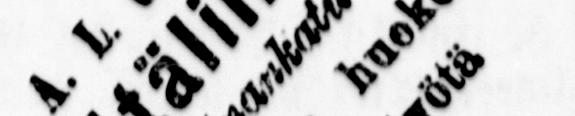valmistetaan huokeinta ja
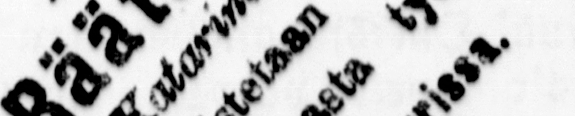Parasta työtä
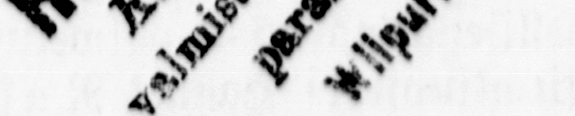Wiipurissa.
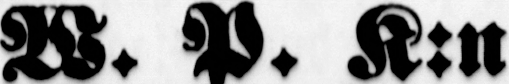W. P. K:n
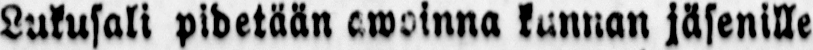Lukusali pidetään awoinna kannan jäsenille
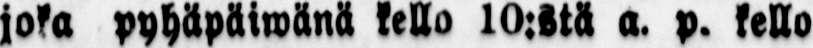joka pyhäpäiwänä kello 10:stä a. p. kello
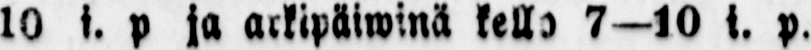10 i. p ja arkipäiwinä kello 7—10 t. p.
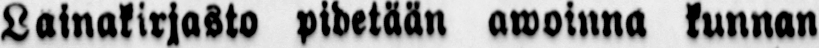Lainakirjasto pidetään awoinna kunnan
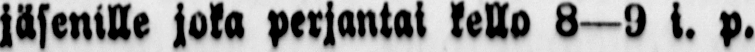jäsenille joka perjantai kello 8-9 i. p.
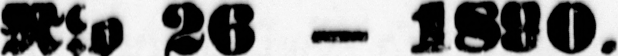N:o 26 — 1880
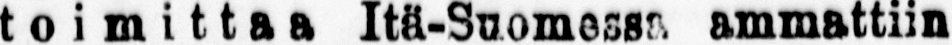toimittaa Itä-Suomessa ammattiin
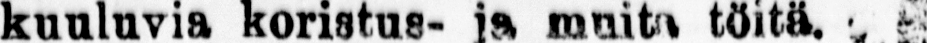kunluvia koristus- ja muita töitä.
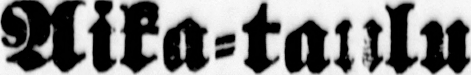Aika-taulu
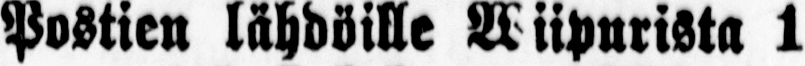Postien lähdöille Wiipurista 1
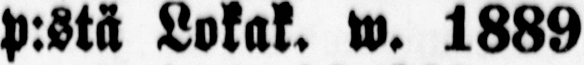p:stä Lokak. w. 1889
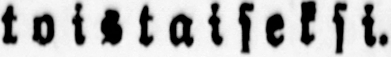toistaiseksi.
